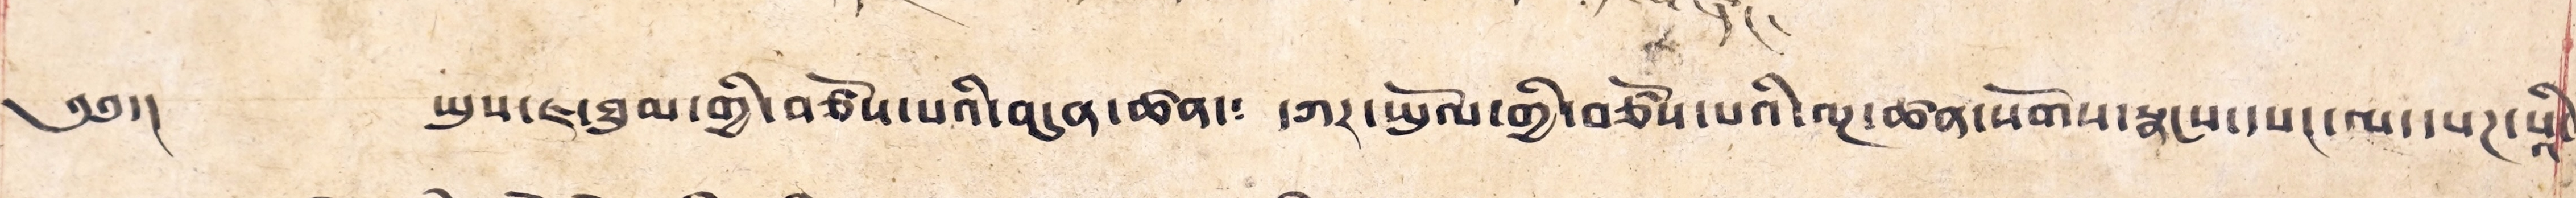༄༅།། ཡུས་ཇ་ཐུམ་གྱི་བཙོས་པའི་བདུན་ཚན་༴ དཀར་སྤྲོལ་གྱི་བཙོས་པའི་ལྔ་ཚན་སོགས་སྣངས་དཔང་ལ་དཔཊ་སའི་
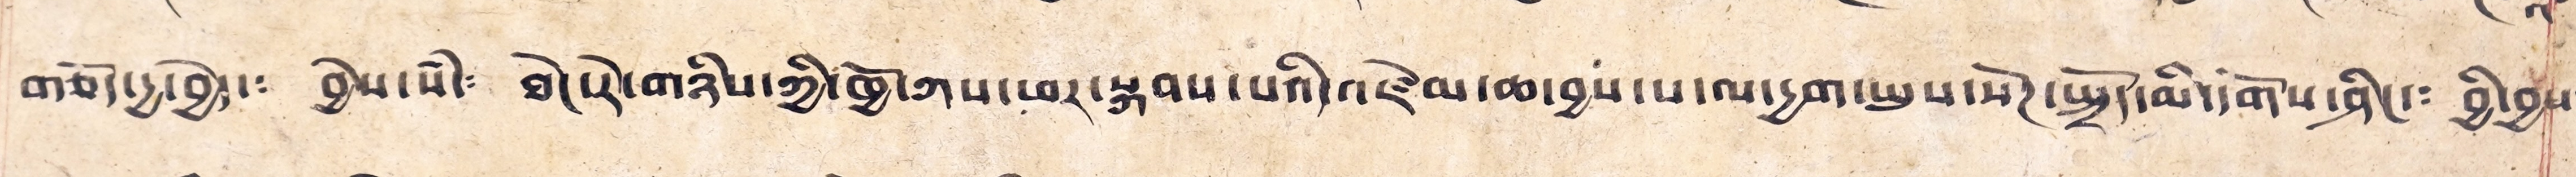གཅོད་དྱ་བྱེད་༴ བྱེས་སཾ་༴ ཐེང་རེ་གཉིས་ཀྱི་ཁྱོ་ཀས་ཕར་སྐབས་པའི་འཛོམ་ཆ་བྱས་པ་ལ་དྱག་ཡུས་སོཊ་སྤྲོད་མི་དགོས་ཤིང་༴ བྱི་བྱས༴
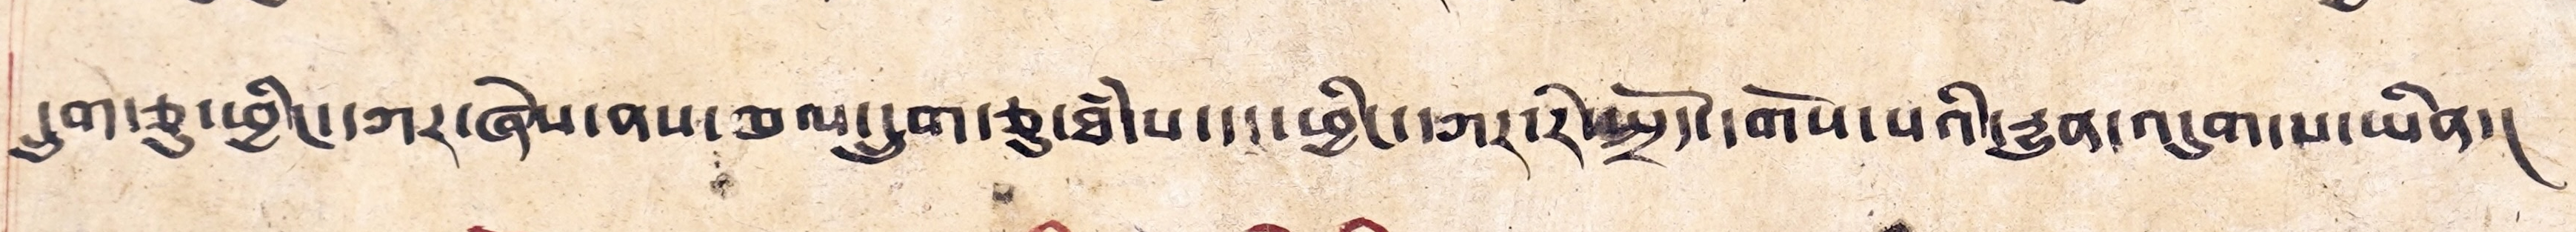དྲུག་ཅུ་ཕྱིང་དཀར་ཞེས་ནས་ཁལ་དྲུག་ཅུ་ཐཾ་པ་དང་ཕྱིང་དཀར་རེ་སྤྲོད་དགོས་པའི་དྱུན་འདུག་པ་ཡིན།།
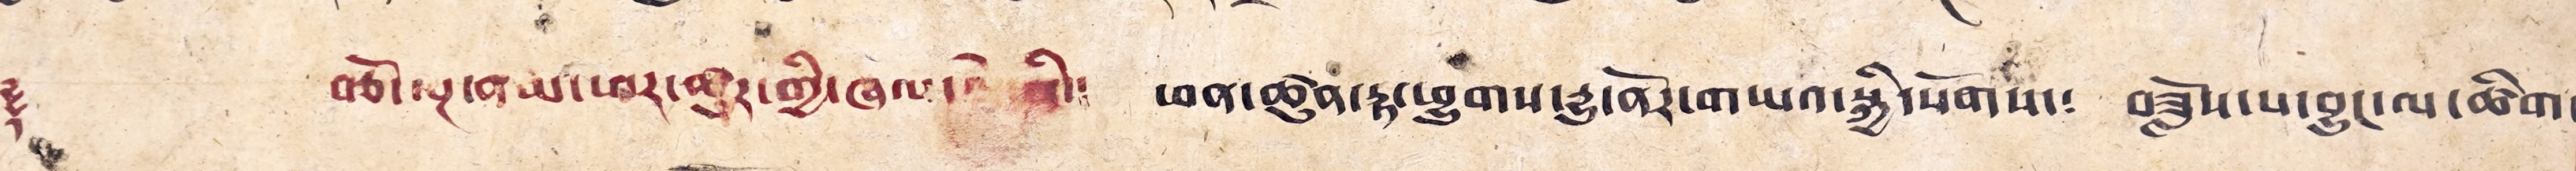༈ བཅོ་ལྔ་ནམ་ཕར་ཚུར་གྱི་ཞལ་ལྕེ་ནི་༴ ཕན་ཚུན་རྟ་ཕྱུགས་རྒྱུ་ནོར་གཡའ་སྐྱི་སོགས་༴ བཟློས་པ་བྱུང་ལ་ཚིག་
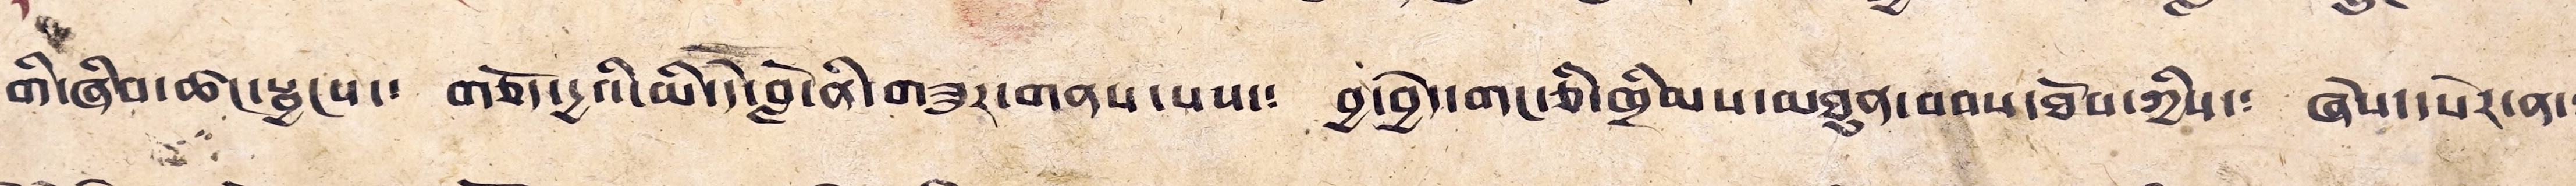གི་ཞིབ་ཚང་སྦྱངས་༴ གཅོད་དྱའི་མི་དེ་བློ་ནི་གཟུར་གནས་པས་༴ བྱ་བྱེད་གང་ཅི་ཁྲིམས་མཐུན་བབས་ཐོབ་ཀྱིས་༴ ཞེས་དཔེར་ན་༴
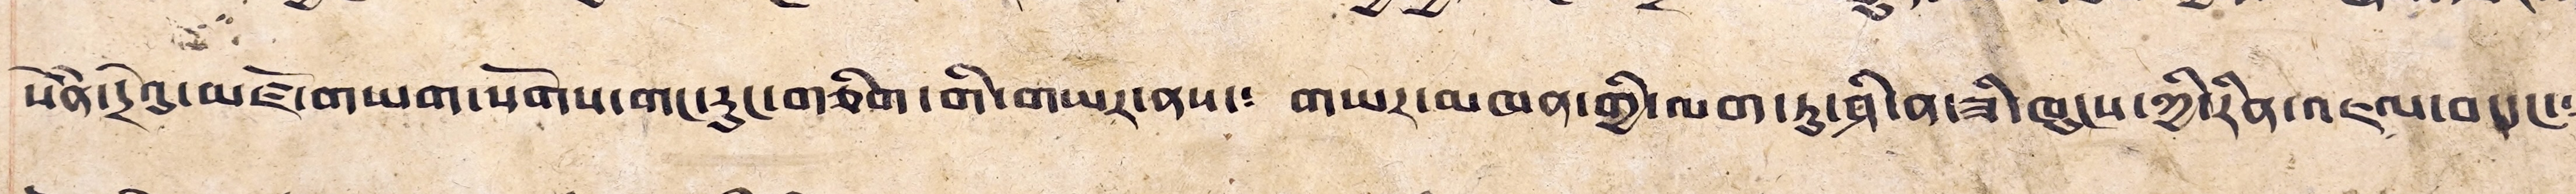སེཾན་དྲེའུ་མཛོ་གཡག་སོགས་གང་རུང་གཅིག་གི་གཡར་ནས་༴ གཡར་མཁན་གྱི་ལག་ཏུ་ཤི་ན་ཟི་ཁུངས་ཀྱི་རིན་འཇལ་བ་དང་༴
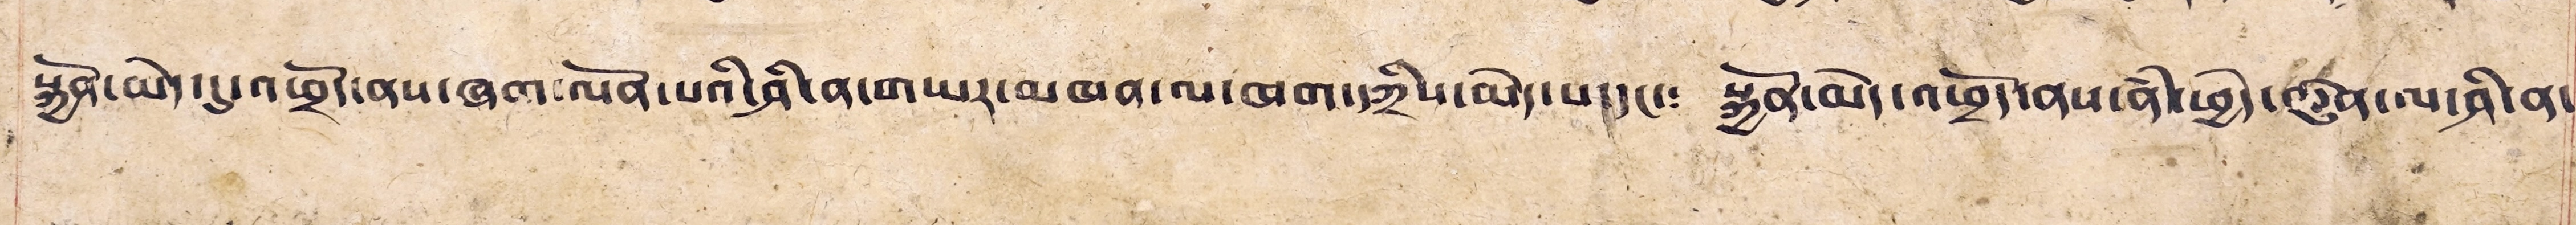སྐྱོན་མེད་དུ་འཕྲོད་ནས་ཞག་ལོན་པའི་ཤི་ན་གཡར་མཁན་ལ་ཁག་དཀྲིས་མེད་པ་དང་༴ སྐྱོན་མེད་འཕྲོད་ནས་ནཾ་ཕྱེད་ཚུན་ལ་ཤི་ན་
